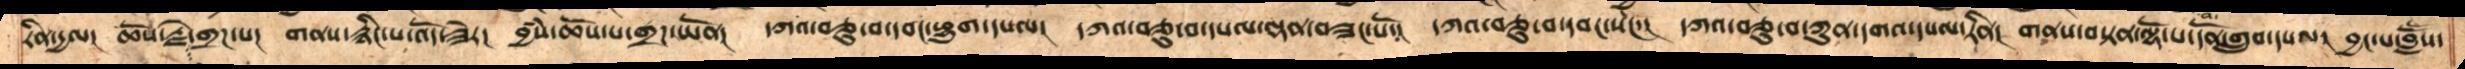རིན་དྱལ།  ཆོས་རྗེ་གྲཌ་པ།  གནས་རྙིང་པ་འོད་ཟེར།  བྱཾས་ཆོས་པ་གྲཌ་ཡོན།  དཀའ་བཅུ་པ་དབང་ཕྱུག་དཔལ།  དཀའ་བཅུ་པ་དཔལ་ལྡན་བཟང་པོ།  དཀའ་བཅུ་པ་དབང་སེང་།  དཀའ་བཅུ་པ་ཀུན་དགའ་དཔལ་རིན།  གནས་བསྟན་ལྷོ་པ་དོན་གྲུབ་དཔལ།  བྱང་པ་བླཽས་
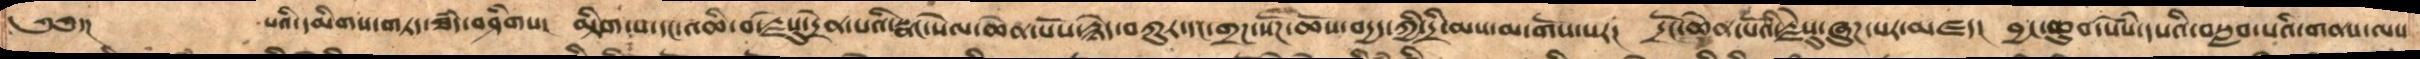༄༅་།     པའི་དམིགས་གཏད་ཐཾད་བཤིགས།  མྟིག་པ་དང་འཆི་བ་རྗེསུ་དྲེན་པའི་སྣང་སེལ་ཆེན་པོས་རྙེད་བཀུར་དང་གྲཌ་སོཌ་ཆོས་བདྱད་གྱི་དྲི་མས་མ་གོས་པར།  དྲོང་ཆེན་པོའི་རྗེསུ་ཞུཌ་པར་མཛད།  བྱང་ཆུབ་སེཾས་དཔའི་བསླབ་པའི་གནས་ལས
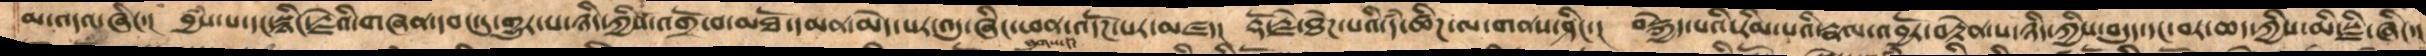མི་འདའ་ཞིང་།  བྱཾས་པ་དང་སྙིང་རྗེའི་གཞན་དབང་དུ་གྱུར་པ་ཉིད་ཀྱིས་འགྲོ་བ་མཐོ་དམན་མེད་པར་འདུ་ཞིང་ཕན་འདོཌ་པར་མཛད། རྡོ་རྗེ་ཐེཌ་པའི་དཾ་ཚིག་ལ་གནས་ཤིང་།  བསྐྱེད་པའི་རིམ་པའི་རྣལ་འབྱོར་བརྟེན་པ་ཉིད་ཀྱིས་བདུད་དང་བར་ཆད་ཀྱིས་མི་སྫི་ཞིང་།
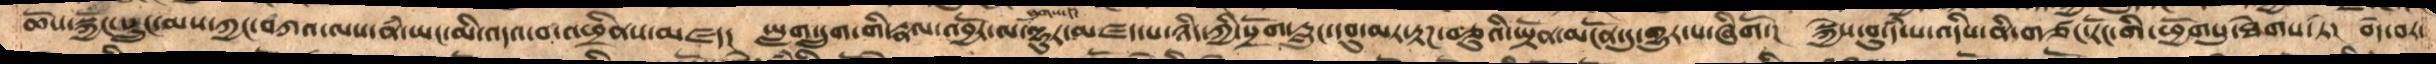ཆོས་སྐྱོང་སྲུང་མས་ཀྱང་བཀའ་ལས་ནཾ་ཡང་མི་འདའ་བ་འཕྲིནས་མཛད། ཡླག་དྲུག་གི་རྣལ་འབྱོར་ལ་ཐུགས་དཾ་ལྷུར་མཛད་པ་ཉིད་ཀྱི་སྲོག་རླུང་དབུ་མར་རྟཌ་བཅུའི་ཡྟོན་མངོན་དུ་གྱུར་པ་ཞིགོ།  སྐྱེས་བུ་དཾ་པ་འདིས་ནི་གཙང་རོང་གི་ཕྱོགསུ་ཐེགས་ཏེ། བདེ་བར་
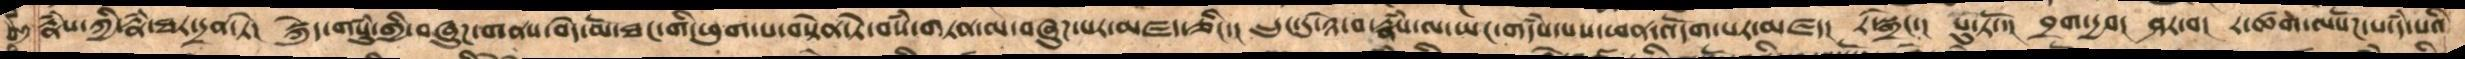རྣཾས་ཀྱི་རྣཾ་ཐར་དྲན་ཏེ། སྐེུད་གསུཾ་གྱི་བཞུཌ་གནས་བདེ་མོ་ཐང་གི་ཕུག་པ་བརྟེན་ཏེ་བསཾ་གཏན་ལ་བཞུཌ་པར་མཛད་ཅིང་།  དྲུང་དུ་ཉེ་བ་རྣཾས་ལ་ཡང་གདཾས་པས་ཕན་འདོག་པར་མཛད། ར་སྒྲེང་། པུ་ཏོ་་། བྲག་དྱབ། ཤར་བ། ར་ཚག་ལསོཌ་པ་དཾ་པའི་
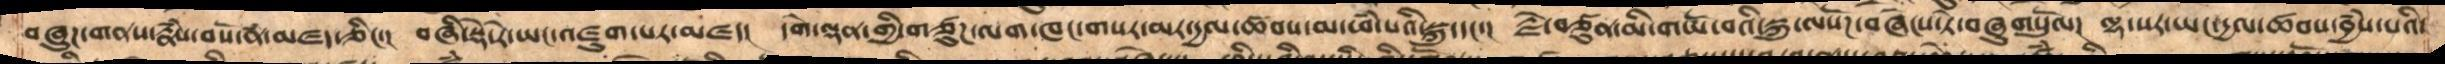བཞུཌ་གནས་རྣཾས་བསོ་ནཾ་མཛད་ཅིང་།  བཞི་སྡེ་རེ་ཡང་འཛུག་པར་མཛད།  དགེ་ལྡན་གྱི་གཙུཌ་ལག་ཁང་གསར་མར་དྱལ་ཚབས་མ་ཕཾ་པའི་སྐུ་དང་།  རྗེ་བཙུན་མི་གཡོ་བའི་སྐུ་ལསོཌ་བཞེངས་ཏེ་བཞུགསུལོ།  ལྷ་སར་ཡང་དྱལ་ཚབས་བྱཾས་པའི་
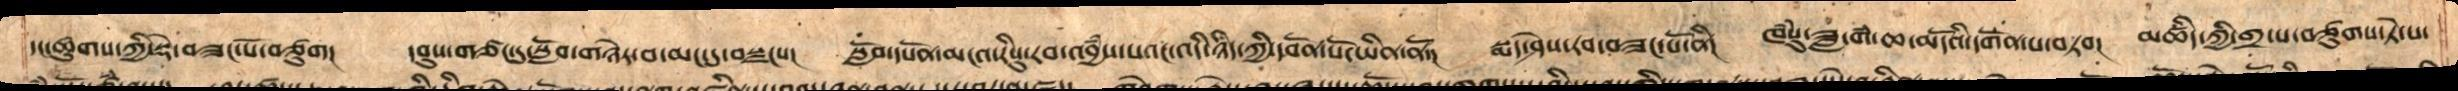དང་ཚུགས་ཀྱི་སྡེ་བཟང་པོ་བཙུག། དབུས་གཙང་དུ་སློབ་གཉེར་བ་མང་དུ་བསྫངས།   སློབ་དཔོན་མངའ་རིསུ་རབ་འབྱཾས་པའང་འདི་ཉིད་ཀྱི་དབོན་སོང་ཡིན་ནོ། སྨད་ཤེས་རབ་བཟང་པོ་ནི། ཁཾསུ་ཟླ་གཾ་ཆ་མདོའི་དགོན་པ་བཏབ། མཚིད་ཀྱི་གྲ་པ་བཙུགས་ཏེ་པ་
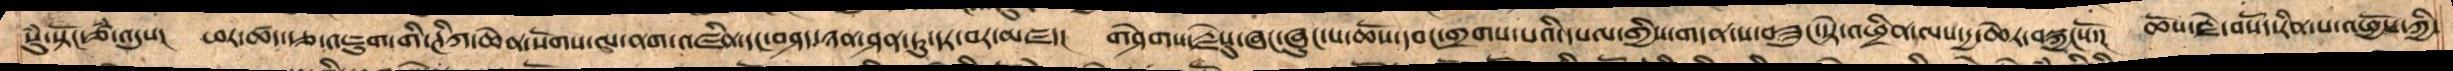སུཾ་སྟོང་ཙཾ་འདུས།  ཕར་ཚད་དང་རྩ་འཇུག་གི་ཊིཀ་ཆེན་སོགས་ལ་ནག་འཛིན་དང་བཤད་ཉན་ཤན་ཏུ་དར་བར་མཛད།  གཤེགས་རྗེསུ་ཞང་ཞུང་པ་ཆོས་དབང་གྲགས་པའི་དཔལ་གྱིས་གདན་ས་བཟུང་སྟེ་འཕྲིན་ལས་དྱ་ཆེར་བསྐྱངསོ།  ཆོས་རྗེ་བསོད་རིན་པ་འཕྱོས་ཀྱི་
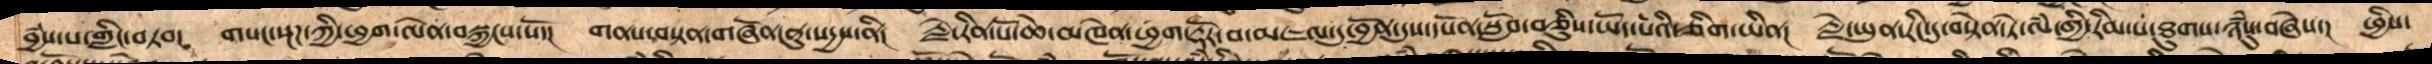བྱཾས་པ་གླིང་བཏབ་  གསང་སྔཌ་ཀྱི་ཕྱག་ལེན་བསྐྱངས་སོ།  གནས་བསྟན་གཞོན་ནུ་སདྱས་ནི།  རྗེ་རིན་པོ་ཆེ་མཁེན་ཕྱག་རྡོར་བ་མཇལ་དུ་བྱོན་དུས་དཔོན་སློབ་བཅིུས་ཡོད་པའི་ཅིག་ཡིན།  རྗེ་ཡུན་རིང་དུ་བསྟེན་ཏེ་ལཾ་གྱི་རིམ་པ་ཐུགས་ཉཾསུ་བཞེས།  ཕྱིས་
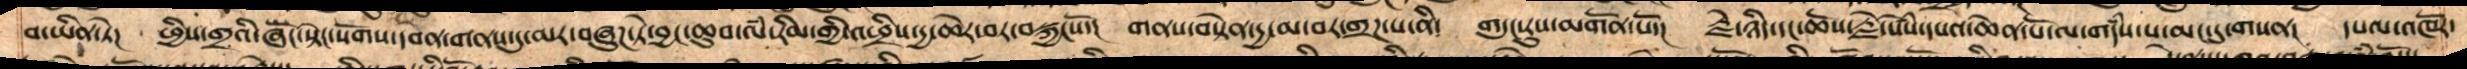བ་ཡིན་ཏེ།  ཕྱིས་གྲའི་ཞོང་སྟེང་སོགས་དབེན་གནས་དུ་མར་བཞུཌ་ཏེ་བྱང་ཆུབ་ལཾ་རིམ་གྱི་འཕྲིས་དྱ་ཆེར་བར་བསྐྱངསོ།  གནས་བསྟེན་དྱ་མ་བར་གྲཌ་པ་ནི།  གདུང་རུས་མགོན་པོ་།  རྗེ་ཉིད་དང་ཆོས་རྗེ་སེཾས་དཔའ་ཆེན་པོ་ལ་གདཾས་པ་མང་དུ་གསན།  དཔལ་འཁོར་
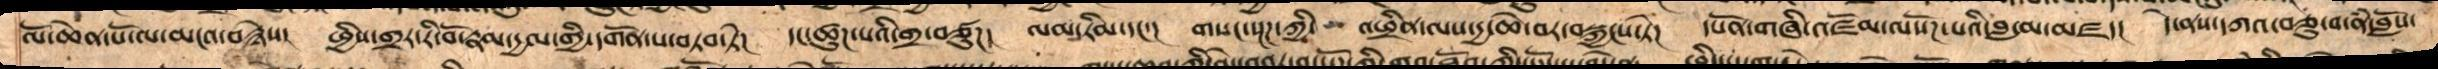ལོ་ཆེན་པོ་ལ་མངའ་བརྙེས། ཕྱིས་གྲར་རི་བོ་རྣམ་དྱལ་གྱི་དགོན་པ་བཏབ་ཏེ། དང་ཚུཌ་པའི་གྲ་བཙུཌ། ལམ་རིམ་དང་།  གསང་སྔཌ་ཀྱི་ འཕྲིན་ལས་དྱ་ཆེ་བར་བསྐྱངས་ཏེ། དཔོན་གཞི་འཛོམ་ལསོཌ་པའི་བླ་མ་་མཛད།  དེ་ནས་དཀའ་བཅུ་པ་ནཾ་བློས་
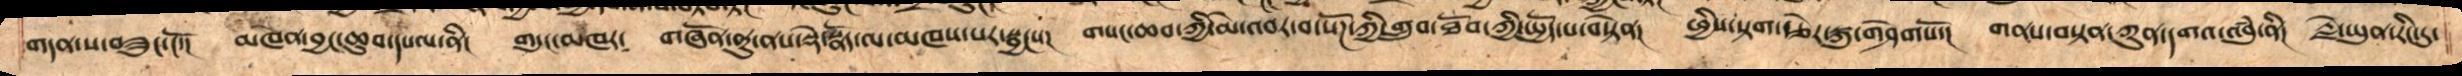གདན་ས་བཟུང་ངོ་། མཁེན་བྱང་ཆུབ་དཔལ་ནི། གདུང་མཁར༴ གཞོན་ནུ་ནས་སྡེ་སྣོད་ལ་མཁས་པར་སྦྱངས། གསང་ཆབ་ཀྱི་མེ་འབར་བ་སོཌ་ཀྱི་་གྲུབ་ཐོབ་ཀྱི་སྤྱོད་པ་བསྟེན། ཕྱིས་སྟག་རྩེར་སྐུ་གཤེགསོ་། གནས་བསྟན་ཀུན་དགའ་འབུཾ་ནི། རྗེ་ཡུན་རིང་དུ་
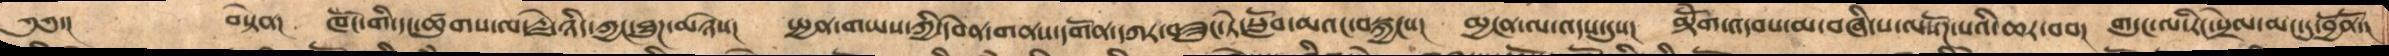༄༅་།   བསྟེན།  ཁོང་གི་དང་ཚུགས་ལ་རྗེ་ཉིད་ཀྱང་ཐུཌ་མཉེས།  སྤྱན་གཡས་ཀྱི་དབེན་གནས་དགོན་དཀར་བཟུང་ཏེ་སློབ་མའང་བསྐྱངས།  མྱངན་ལས་འདས་དུས།  མྟེོག་འདབས་མ་བཞི་པ་ལསོཌ་པའི་ཆར་བབ།  གདུང་ལ་རིང་སྲེལ་མང་དུ་བྱོནོ་།
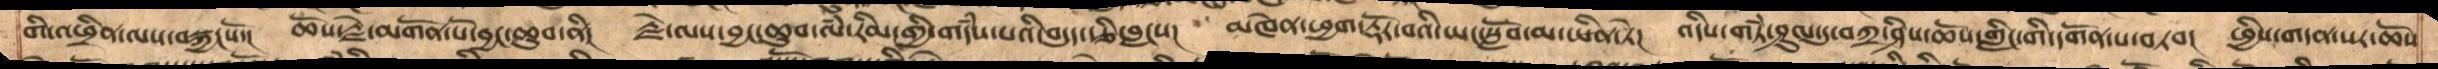གི་འཕྲིན་ལས་བསྐྱངས་སོ།  ཆོས་རྗེ་མགོན་པོ་བྱང་ཆུབ་ནི།  རྗེ་ལས་བྱང་ཆུབ་ལཾ་རིམ་གྱི་གདཾས་པའི་བདུད་རྩི་བླངས།  མཁེན་ཕྱག་རྡོར་བའི་ཡང་སློབ་མ་ཡིན་ཏེ།  འདིས་གཏཾ་ཤུལ་དུ་བཀྲ་ཤིས་ཆོས་གླིང་གི་དགོན་པ་བཏབ།  ཕྱིས་གདན་སར་ཆོས
